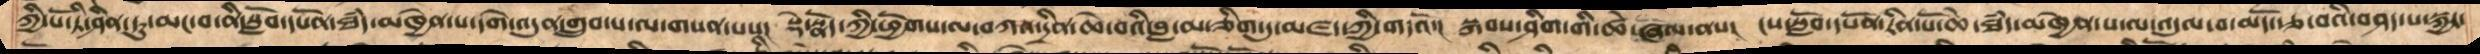ཀྱི་པོ་ཏི་ཤིན་ཏུ་མང་བ་ནི་སློབ་དཔོན་ཐཾད་མཁྱེན་པ་དགེ་འདུན་གྲུབ་པ་ལ་གསན་པས།  སྡེ་སྣོད་ཀྱི་ཕྱོགས་ལ་བཀའ་དྲིན་ཆེ་བའི་བླ་མ་ཅིག་དུ་མཛད་ཀྱི་གདའོ་།   སྐབས་ཤིག་གི་ཚེ་ཞལ་ནས།  ངས་སློབ་དཔོན་རིན་པོ་ཆེ་ཐཾད་མཁྱེན་པ་ལ་འདུལ་བ་མདོ་རྩ་བའི་བཤད་པ་སྐྱར་
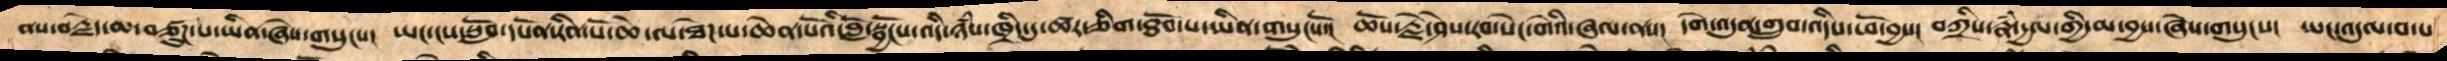ནས་བརྗེད་ཆ་བཙུཌ་པ་ཡིན་ཞེས་གསུངས།  ཡང་ངས་སློབ་དཔོན་རིན་པོ་ཆེ་ལ་ཐེཌ་པ་ཆེན་པོའི་བློ་སྦྱོངས་འདི་ཉཾས་ཁྲིད་དུ་ཚར་ཅིག་ཐོབ་པ་ཡིན་གསུངསོ་།  ཆོས་རྗེ་ཤེས་རབ་སེང་གེའི་ཞལ་ནས།  དགེ་འདུན་གྲུབ་འདིས་ཕོ་བྱས།   བཀྲིས་རྣཾ་དྱལ་གྱི་མ་བྱས་ཞེས་གསུངས།  ཡང་འདུལ་བ་པ
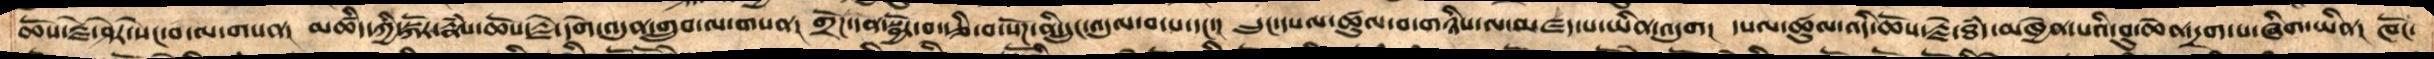ཆོས་རྗེ་ཤེར་སེང་བ་ལ་གསན།  མཚིད་ཀྱི་སྐོར་རྣཾས་ཆོས་རྗེ་དགེ་འདུན་གྲུབ་ལ་གསན།  གྲོཌ་དན་སྦྱོར་བ་རྩི་བ་སོཌ་ནི་དྲུང་འདུལ་བ་པ་དང་།  དྲུང་དཔལ་ཚུལ་བ་གཉིས་ལ་མཛད་པ་ཡིན་འདུག།  དཔལ་ཚུལ་འདི་ཆོས་རྗེ་ཐཾད་མཁྱེན་པའི་བུ་ཆེན་དྲག་པ་ཞིག་ཡིན།  ཁོང་
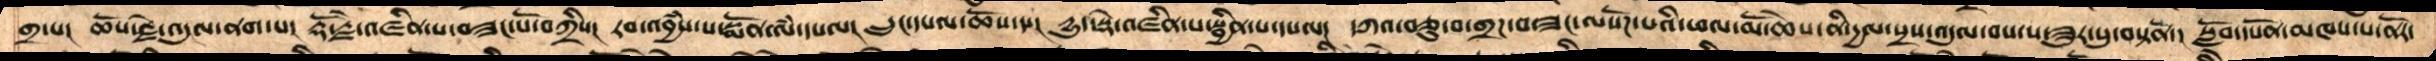གྲ་པ།   ཆོས་རྗེ་འདུལ་ནག་པ།  རྡོ་རྗེ་འཛིན་པ་བཟང་པོ་བཀྲིས།  རབ་འབྱཾས་པ་སྨོན་ལཾ་དཔལ།  དྲུང་དཔལ་ཆོས་དང་།  དྱུད་སྡེ་འཛིན་པ་སྦྱིན་པ་དཔལ།  དཀའ་བཅུ་བ་གྲཌ་བ་ཟང་ལསོཌ་པའི་ཕལ་མོ་ཆེས་ནི་དྱལ་སྲས་འདུལ་བས་ས་ཟུར་སུ་བསྟནོ་།  སློབ་དཔོན་མཁས་པ་ནོར་
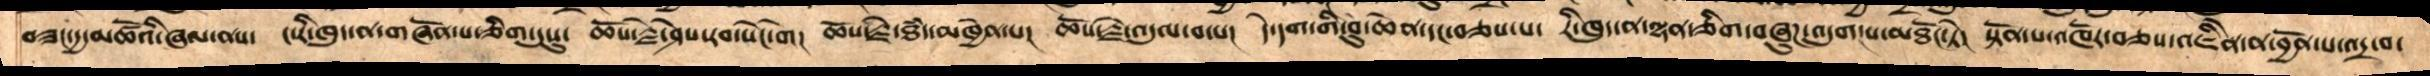བཟང་དྱ་མཚོའི་ཞལ་ནས་   ང་རི་ཁུད་ན་གཞོན་པ་ཅིག་དུསུ་  ཆོས་རྗེ་ཤེས་རབ་སེང་གེ།   ཆོས་རྗེ་ཐཾད་མཁྱེན་པ།  ཆོས་རྗེ་འདུལ་བ་པ།  དེ་དག་གི་བུ་ཆེན་དང་བཅས་པ་  རི་ཁུད་ན་ལྷན་ཅིག་བཟུཌ་འདུག།པ་མཐོང་ཏེ།   སྟོན་པ་འཁོར་བཅས་འཇིནེ་ན་བྱོན་པ་འདྲ་བ་
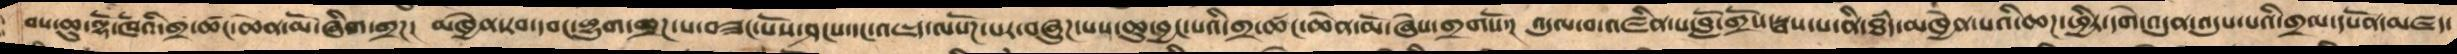བས་ཆུ་ལྷོ་ཁའི་གྲ་ཚང་ཆེན་མོ་ཞིག་གྲཌ།  མཁྱེན་རབ་དབང་ཕྱུག་གྲཌ་པ་བཟང་པོས་ཤངས་དང་འཇད་ལསོཌ་པར་བཞུཌ་པས་ཆུ་བྱང་པའི་གྲ་ཚང་ཆེན་མོ་ཞེས་གྲགསོ་།  འདུལ་བ་འཛིན་པ་བློ་གྲོས་སྦས་པ་ནི་ཐཾད་མཁྱེན་པའི་ཆཌ་ཕྱིར་དགེ་འདུན་འདུས་པའི་གྲལ་དཔོན་མཛད་
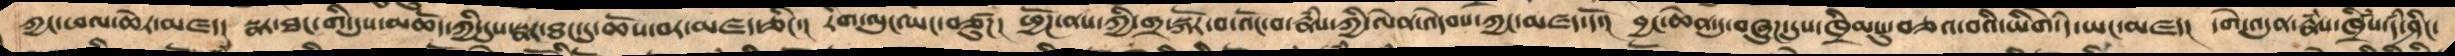ཀྱང་ཕལ་ཆེར་མཛད། སྣར་ཐང་གི་དུས་མཆོད་ཀྱི་དུས་སྣར་ཐང་དུ་ཆོས་བར་མཛད་ཅིང་།  རིག་ལུང་ཡང་བཙུཌ།  ཕྱོཌ་ནས་ཀྱི་གྲ་སྐོར་བ་འོང་བ་རྣཾས་ཀྱི་ལེན་འདེབས་ཀྱང་མཛད་དོ་།  བྱང་ཆེན་དུ་བཞུཌ་དུས་ཁྲིམསུ་བཅའ་བའི་ཡིགེ་དེ་ཡང་མཛད།  དགེ་འདུན་རྣཾས་ཁྲིསཾ་དཾ་ཤིང་
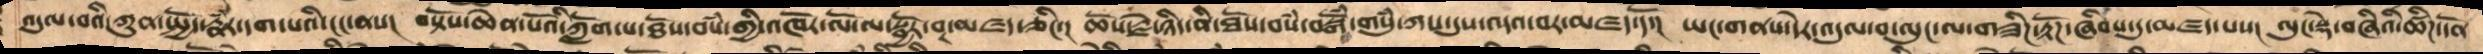འདུལ་བའི་ཀུན་སྤྱོད་རྣཾར་དག་པའི་ངང་ནས། བསྟོས་ཆེན་པོའི་ཀློག་པ་ཐོས་བསཾ་གྱི་འཁོར་ལོ་ལ་སྦྱོར་བར་མཛད་ཅིང་། ཆོས་རྗེ་ཉིད་ནི་ཐོས་བསཾ་བསྒོཾ་གསུཾ་ཀས་དུས་འདའ་བར་མཛད་དོ།  ཡང་གནས་དེར་འདུལ་བ་ལུང་ལ་གཟིཌ་རྟོཌ་ཞིབས་དུ་མཛད་པས། ལུང་སྡེ་བཞིའི་ཚིཌ་དོན་
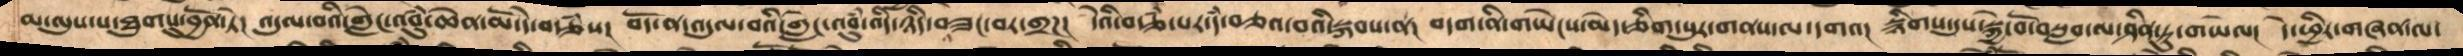མ་ལུས་པ་ཐུགསུ་བྱོན་ཏེ།  འདུལ་བའི་གླེང་འབུཾ་ཆེན་མོ་དེ་བརྩཾས།  བོད་ན་འདུལ་བའི་གླེང་འབུཾ་འདི་ཉིད་བཟང་བར་གྲཌ།  དེའི་བརྩཾ་པར་དཾ་བཅའ་བའི་སྐབས་ན། བདག་ནི་གཡེངས་མེད་ཅིག་པུར་གནས་ལ་དགའ། སྙིགས་དུས་སྐྱེ་བོ་བསླབ་ལ་ཤིན་ཏུ་གཡེལ།  དེ་ཕྱིར་གཞན་ལ་
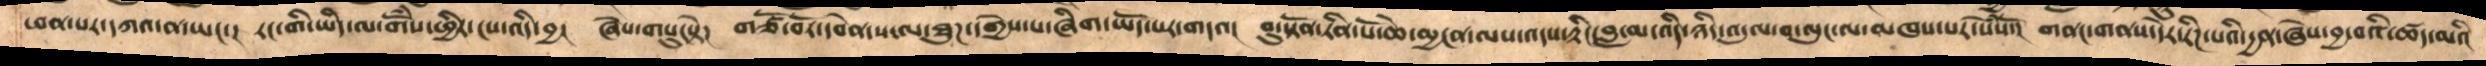ཕན་པར་དཀའ་ན་ཡང་།  རང་གི་ཡིད་ལ་གོཾས་ཕྱིར་ངས་འདི་བྱ།  ཞེས་གསུངསྟེ། གཙོ་བོར་དབེན་པ་ལ་ཐུཌ་དགྱེས་པ་ཞིག་ཡོད་པར་གདའ།  བུ་སྟོན་རིན་པོ་ཆེ་མྱངན་ལས་འདས་རྟིང་བླ་མ་འདི་ཉིད་འདུལ་བ་ལུང་ལ་མཁས་པར་སེསོཾ།  གནང་གནས་དེར་རིཌ་པའི་དྱན་ཞེས་བྱ་བའི་ཚད་མའི་
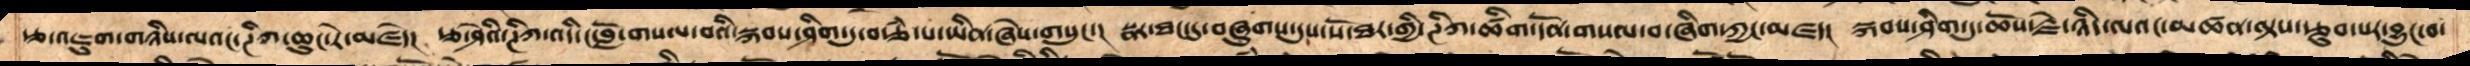རྩ་འཇུག་གཉིས་ལའང་ཊིཀ་ཆུང་རེ་མཛདེ།  རྩ་ཤེའི་ཊིཀ་འདི་ང་བློ་གསལ་བའི་སྐབས་ཤིག་དུ་བརྩཾ་པ་ཡིན་ཞེས་གསུང་།  སྣར་ཐང་དུ་བཞུགས་དུས་སོ་ཐར་གྱི་ཊིཀ་ཚིག་དོན་གསལ་བ་ཞིག་ཀྱང་མཛད།  སྐབས་ཤིག་དུ་ཆོས་རྗེ་ཉིད་ལའང་མཚན་ལྟས་རྩུབ་པར་བྱུང་བ་
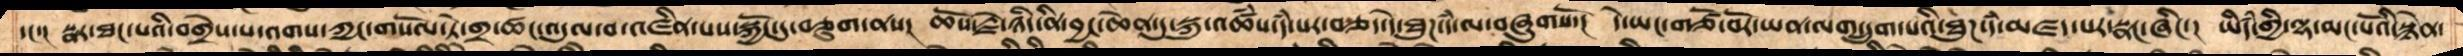དང་། སྣར་ཐང་པའི་བགྲེས་པ་འགས་ཀྱང་གསོལ་ཏེ་གྲ་ཚང་འདུལ་བ་འཛིན་པས་སྐྱོང་དུ་བཅུག་ནས།  ཆོས་རྗེ་ཉིད་ནི་བྱང་ཆེན་དུ་སྐུ་འཚཾས་དཾ་པར་བཅད་དེ་ཐུཌ་དཾ་ལ་བཞུགསོ་།  དེ་ཡང་གཙོ་བོར་ཡན་ལག་དྲུག་པའི་ཐུཌ་དཾ་མཛད་པར་སྣང་ཞིང་།  ཡིདཾ་གྱི་ལྷ་མང་པོའི་སྙེན་
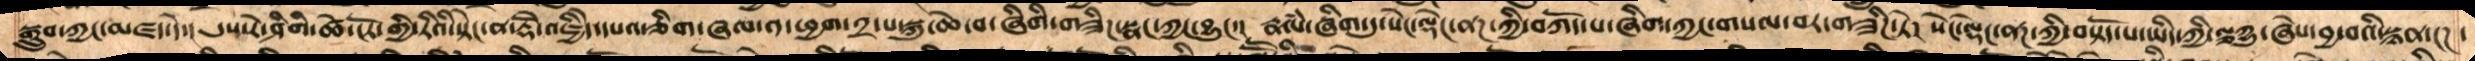སྒྲུབ་ཀྱང་མཛད་དེ་།   དུས་རེ་ཤིགི་ཚེ་ངོར་གྱི་རིའི་སྟེང་ན་རྡོེ་འཇྱིདེ་དཔའ་ཅིག་ཞལ་༡་ཕྱག་༢་པ་སྐུ་ཆེ་བ་ཞིགི་གཟིཌ་སྣང་ཀྱང་བྱུང་།  རྣཾལ་ཞིག་དུ་སེང་ལྡེང་ནཌ་ཀྱི་བཀོད་པ་ཞིག་ཀྱང་གསལ་བར་གཟིཌ་ཏེ།  སེང་ལྡེང་ནཌ་ཀྱི་བསྟོད་པ་ཡིད་ཀྱི་ལྕཀྱུ་ཞེས་བྱ་བའི་སྙན་ངཌ།།
